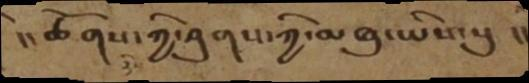།། ཚོགས་ཀྱི་ཤུགས་ཀྱི་མཐུ་ཡིས་སུ །།
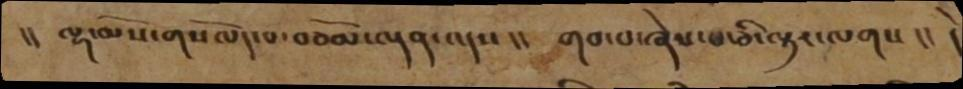།། ལྷ་མོས་གསོལད་པ་བཅོམ་ལྡན་འདས།། གབ་པ་ཞེས་པ་ཅི་ལྟར་ལགས།། དེ
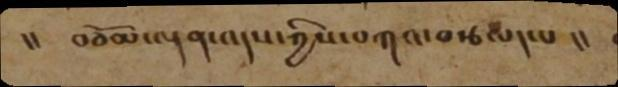།། བཅོམ་ལྡན་འདས་ཀྱིས་བཀའ་བརྩལད་པ།།
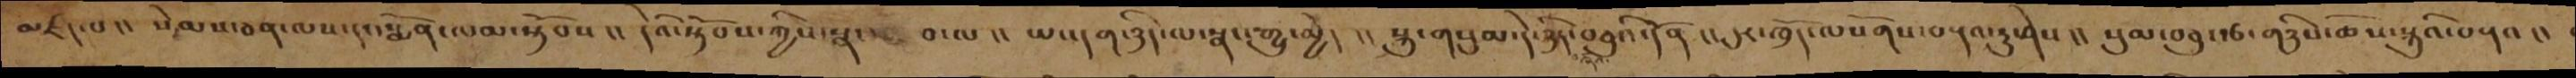མཛད་པ །། སེམས་ཅན་ལས་དང་སྨོན་ལམ་སྟོབས །། དེའི་སྟོབས་ཀྱིས་སྣང་བ་ལ །། ཡང་དག་ཉིད་ལ་སྣང་རྒྱུ་མྱེད །། སྐུ་གསུམ་དེ་ཉིད་བཅུའི་དོན །། དུར་ཁྲོད་ལསོགས་བརྡའ་རུ་ཤེས །། སུམ་བཅུ་རྩ་གཉིས་ཆོས་སྐུའི་བརྡའ །།
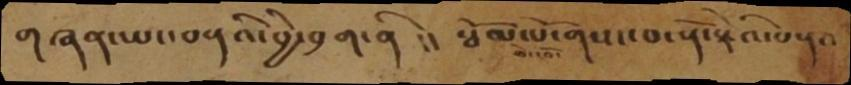གཞན་ཡང་བརྡའི་བྱེ་བྲག་ནི །། སྦོམ་པོ་གསང་བ་རྡོ་རྗེའི་བརྡའ
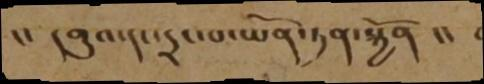།། དགུའ་དང་དྲང་པ་ཡོན་ཏན་སྐྱོན །།
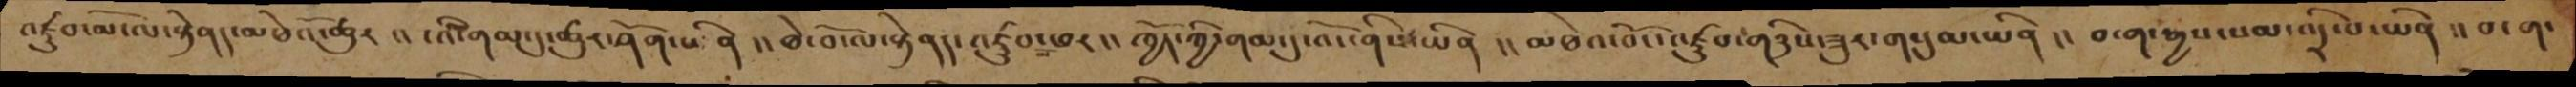འཛུབ་མོ་ལ་སྟེནད་མཐེའོ་ཚུར །། ངའི་གམ་དུ་ཚུར་ཤོག་པ་ནི །། ཐེ་བོ་ལ་སྟེནད་འཛུབ་མོ་ཕར །། ཁྱོད་ཀྱི་གམ་དུ་འོང་ནིས་ཡིན །། མཐེའ་བོང་འཛུབ་གཉིས་ཟུར་གསུམ་ཡིན །། བ་ག་རྒྱས་སམ་འདྲི་པ་ཡིན །། བ་ག་
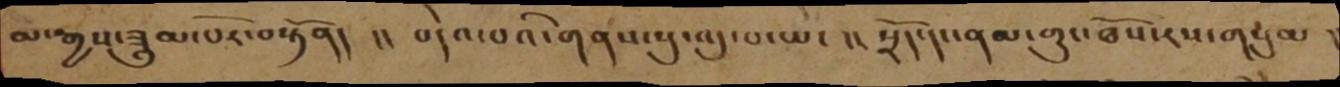མ་རྒྱས་ཟླུམ་པོར་བསྟོནད །། བདེའ་པའི་གནས་སུ་འདུ་པ་ཡང །། སྲོད་དང་ནམ་གུང་ཐོས་རས་གསུམ །
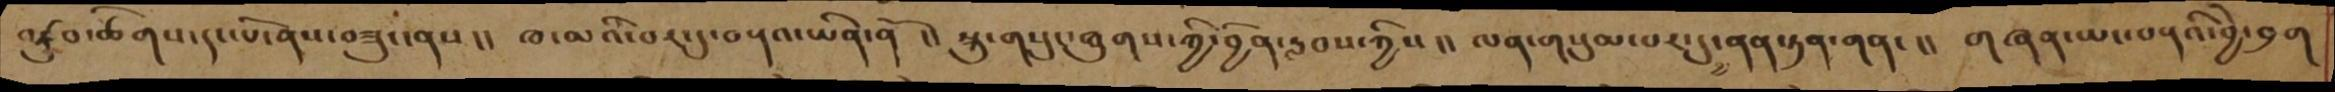འཛུབ་ཚིགས་དང་པོ་ནས་བཟུང་ནས།། ཐ་མའི་བར་དུ་བརྡའ་ཡིན་ནོ །།སྐུ་གསུང་ཐུགས་ཀྱི་བྱིན་རླབས་ཀྱིས།། ལན་གསུམ་པར་དུ་ནན་ཏན་གན་།། གཞན་ཡང་བརྡའི་བྱེ་བྲག
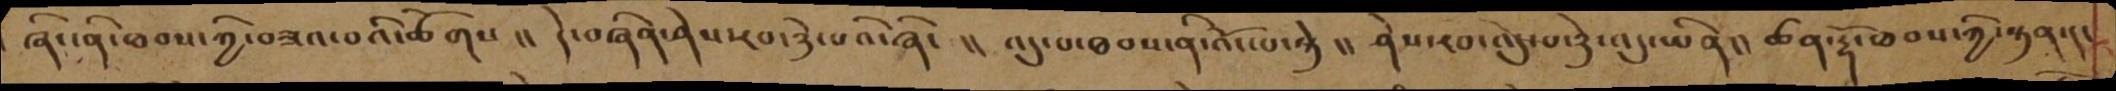ཞིང་ནི་ཐབས་ཀྱི་བཟའ་བའི་ཚོགས །། དེ་བཞིན་ཤེས་རབ་ཉེ་བའི་ཞིང །། འདུ་པ་ཐབས་ནི་འོང་པ་ཉེ །། ཤེས་རབ་འདུ་པ་ཉེ་འདུ་ཡིན།།ཚན་དྷོ་ཐབས་ཀྱི་སྟན་།།
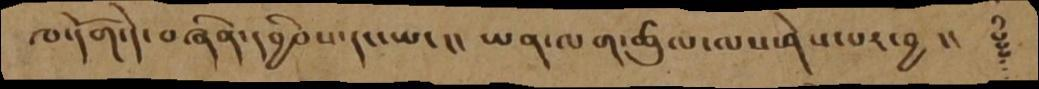ཁ་དོག་དེ་བཞིན་དབྱིབས་དང་ཡང །། ཡན་ལག་ཚུལ་ལས་ཤེས་པར་བྱ །། ༈
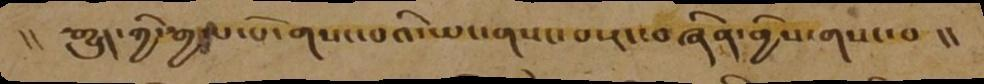།། རྒྱུད་ཀྱི་རྒྱལ་པོ་གསང་བའི་ཡང་གསང་པ་རང་བཞིན་གྱིས་གསང་བ །།
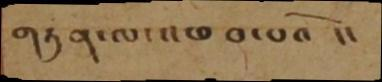གཏན་ལ་ །། ཕབ་པའོ །།
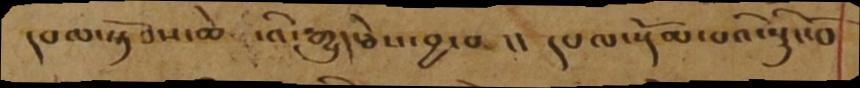དཔལ་སྟོབས་ཆེ ་འི་རྒྱུད་ཅེས་བྱ་བ །།  དཔལ་སྡོམ་པའི་སྙིང་པོ
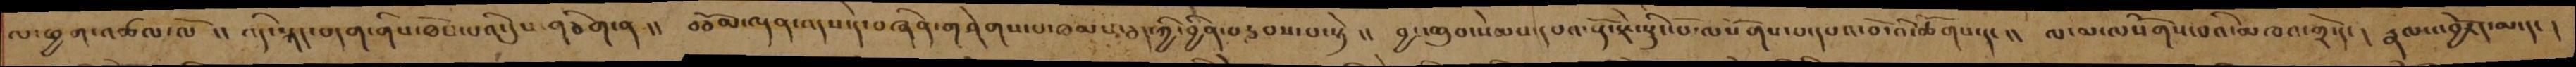ལ་ཕྱག་འཚལ་ལོ །། འདི་སྐད་བདག་གིས་ཐོས་པའི་དུས་གཅིག་ན །། བཅོམ་ལྡན་འདས་དེ་བཞིན་གཤེགས་པ་ཐམས་ཅད་ཀྱི་བྱིན་བརླབས་པ་སྟེ །། བྱང་ཆུབ་སེམས་དཔའ་རྡོ་རྗེ་སྙིང་པོ་ལསོགས་པ་དཔའ་བོ་འི་ཚོགས་དང །། ལ་མ་ལསོགས་བའི་མཁའ་གྲོ་དང ། རྣལ་འབྱོརད་མ་དང །
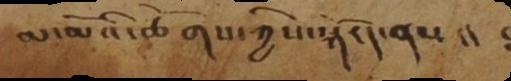མ་མོའི་ཚོགས་ཀྱིས་སྐོརད་ནས །།
